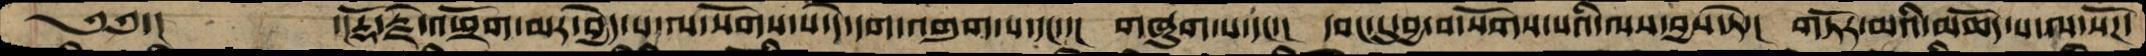༄༅་།       ་།རྡོ་རྗེ་འཕྲོག་མར་བྱེད་པ་ལ་སོགས་པ་དེ་དག་འགུག་པ་དང་་།  གཞུག་པ་དང་་།  དབང་དུ་བྱ་བ་སོགས་པའི་ལས་བྱས་ཏེ་།  གཏོར་མའི་མཆོད་པ་ལ་སོཌ་
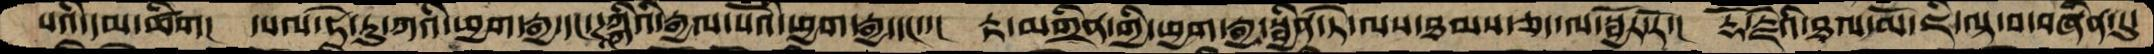པའི་དམ་ཚིག།  དཔལ་ཧེ་རུ་ཀའི་ཕྱག་རྒྱ་དང་ཌཱཀྐིའི་རྒྱལ་པོའི་ཕྱག་རྒྱ་དང་་།  རྟ་མགྲིན་གྱི་ཕྱག་རྒྱ་སྦྱིན་ཏེ་ལས་ཐམས་ཅད་ལ་སྦྱོར་རོ་།   རྡོ་རྗེའི་ཐལ་མོ་ཇི་ལྟ་བ་བཞིན་དུ་
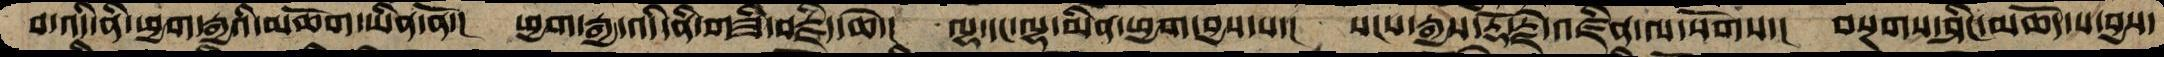བ་འདི་ནི་ཕྱག་རྒྱའི་མཆོག་ཡིན་ནོ་།  ཕྱག་རྒྱ་འདི་ནི་གཟི་བརྗིད་ཆེ་།  ལྷ་དང་ལྷ་མིན་ཕྱག་བྱས་པ་།  སངས་རྒྱས་རྡོ་རྗེ་འཛིན་ལ་སོགས་།  བསྔགས་ཤིང་མཆོད་པ་བྱས་
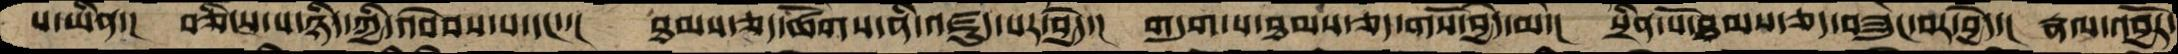པ་ཡིན་།  བཅིངས་པ་ཉིད་ཀྱི་འབེབས་པ་དང་་།  ཐམས་ཅད་ཚོགས་ནི་འཛུད་པར་བྱེད་།  གདུག་པ་ཐམས་ཅད་གསོ་བྱེད་མ་།  སྲིན་པོ་ཐམས་ཅད་བཟུང་བར་བྱེད་།  རྣལ་འབྱོར་
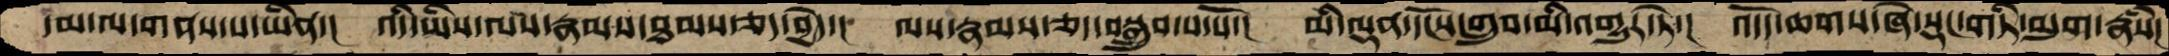དམ་ལ་གནས་པ་ཡིན་།  འདི་ཡིས་ལས་རྣམས་ཐམས་ཅད་བྱེད་།  ལས་རྣམས་ཅད་བསྒྲུབ་པ་པོ་།  མི་ལྡན་དངོས་གྲུབ་མི་འགྱུར་ཏེ་།  འདོད་ཆགས་ཞེ་སྡང་གཏི་མུག་རྣཾས།
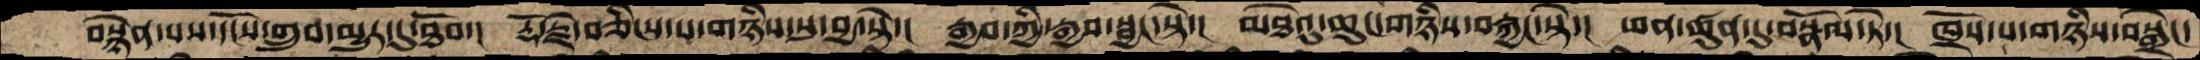བསྙེན་པས་དངོས་གྲུབ་མྱུར་དུ་ཐོབ་།  རྡོ་རྗེ་བཅིངས་པ་གཉིས་སུ་བྱ་སྟེ་།  རྒྱབ་ཀྱི་རྒྱབ་སྦྱང་སྟེ་།  མཐེའུ་ཆུང་གཉིས་བརྐྱང་སྟེ་།  ཕན་ཚུན་དུ་བསྣོལ་སྟེ་།  ཁྲོས་པ་གཉིས་བསྒྲེང་
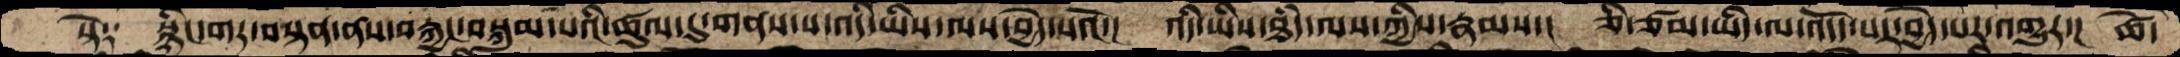སྟེ༑   སྙིང་གར་བསྟན་ནས་བརྐྱང་བསྐུམ་པའི་ཚུལ་དུ་གནས་པ་འདི་ཡིས་ལས་བྱེད་པའོ་།  འདི་ཡིས་ཐཾད་ལས་ཀྱིས་རྣམས་།  ཅི་ཙམ་ཡིད་ལ་འདོད་པར་བྱེད་པར་འགྱུར་།  ཚེ་
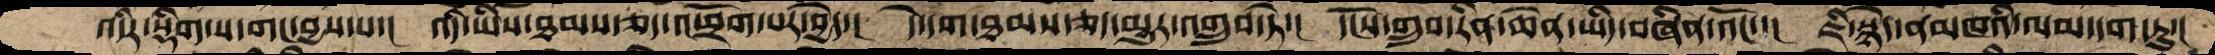འདིར་སྡིག་པ་གང་བྱས་པ་།  འདི་ཡིས་ཐམས་ཅད་འཕྲོག་པར་བྱེད་།  དེ་དག་ཐམས་ཅད་མྱུར་འགྲུབ་ཏེ་།  དངོས་གྲུབ་རིན་ཆེན་ཡིད་བཞིན་འོང་་།  ཇི་སྙེད་ནམཁའི་ལམ་དག་ཏུ་།
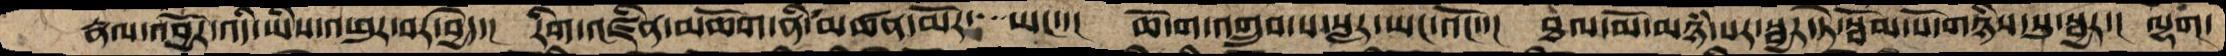རྣལ་འབྱོར་འདི་ཡིས་འཕུར་བར་བྱེད་།  རིག་འཛིན་མཆོག་ནི་མཚན་མོར་  ཡང་་།  ཆོ་ག་འགྲུབ་པ་སླར་ཡང་འོང་་།  ཐལ་མོ་མཉཾ་པར་སྦྱར་ཏེ་སྦོམ་པོ་གཉིས་སུ་སྦྱར་།  ལྷག་
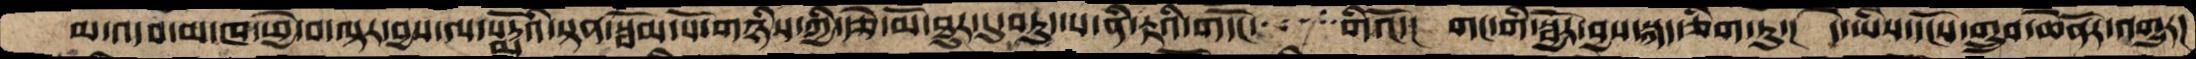མ་འདབ་མ་ཁ་ཕྱེ་བ་ལྟར་བྱས་ལ་པདྨོའི་སྟན་སྦོམ་པོ་གཉིས་ཀྱི་རྩེ་མོ་ཐུར་དུ་བཏུད་པ་ནི་རྟའི་གདོང་   གིའོ་།  གང་གི་སྦྱོར་བྱས་སྐད་ཅིག་ཏུ་།  དེ་ཡིས་དངོས་གྲུབ་ཆེནོར་འགྱུར།
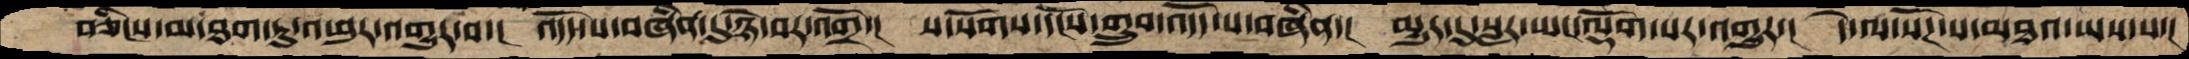བཅིངས་མ་ཐག་ཏུ་འཕུར་འགྱུར་བ་།  འདོད་པ་བཞིན་དུ་ཉེ་བར་འགྲོ་།  ས་སོགས་དངོས་གྲུབ་འདོད་པ་བཞིན་།  མྱུར་དུ་སླར་ཡང་ལྡོག་པར་འགྱུར་།  དེ་ལ་སོཌ་པ་མཐའ་ཡས་པ་།
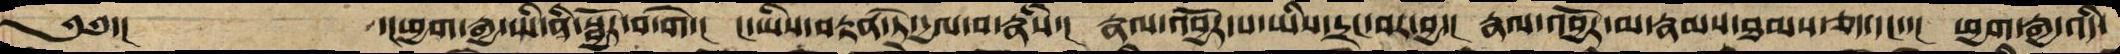༄༅་།          ་།ཕྱག་རྒྱ་ཡི་ནི་སྦྱོར་བ་གེ་།  ང་ཡིས་བརྟན་ཏེ་དྱལ་བ་རྣཾས་།  རྣལ་འབྱོར་པ་ཡིས་དྲང་བར་བྱ་།  རྣལ་འབྱོར་མ་རྣམས་ཐམས་ཅད་དང་་།   ཕྱག་རྒྱ་འདི་
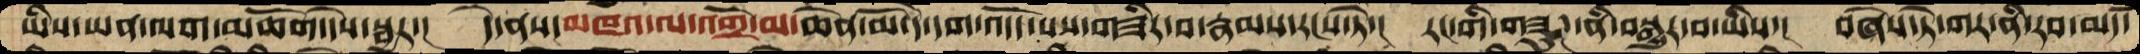ཡིས་ཡན་ལག་མཆོག་དེས་སྦྱར་།   དེ་ནས་མཁའ་ལ་འགྲོ་མ་ཆེན་མོ་དེ་དག་འདོད་པས་གཟིར་བ་རྣམས་རངས་ཏེ་།  རང་གི་གཟུཌ་ནི་བསྒྱུར་བ་ཡིས་།  བཞེས་ཏེ་གར་ནི་རབ་མཛད་
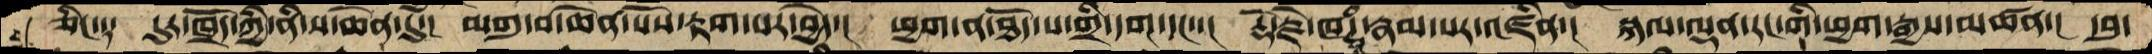ཅིང་༑   དུར་ཁྲོད་ཀྱི་ནི་ས་ཆེན་དུ་།  མགུ་བ་ཆེན་པོས་རྟག་པར་བྱེད་།  ཕྱག་ན་ཐོད་པ་གྲི་དག་དང་་།  རྡོ་རྗེ་ཁཊྭཱཾ་རྣམ་པར་འཛིན་།  སྐལ་ལྡན་རང་གི་ཕྱག་རྒྱས་མཚན་།  དབུ་
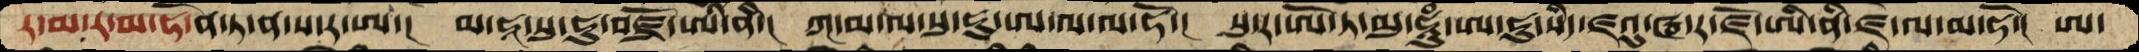ར་མ་ར་མ་ཧོ་ན་ཏ་ན་ས་ར་ཨ་།   མ་ཧཱ་སུ་ཧུ་བཛྲོ་ཨི་ནི་།  ཀ་མ་ལ་སུ་ཧུ་ཨ་ལ་ལ་ཧོ་།  སུ་ར་ཨོ་ཏ་མུ་ཧཱུཾ་ཨ་ཧུ་སིད་ཛའུ་ཝ་ར་ཛོ་ཨི་ནི་ཛ་ལ་མ་ཧོ་།  ཨ་
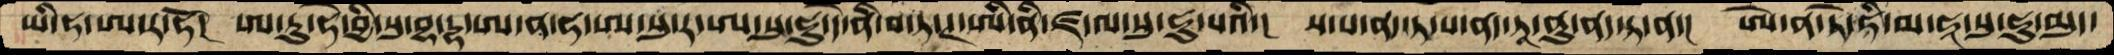ཡི་ཧ་ཨ་ར་ཧོ།  ཨ་ཏུ་ཧེ་བྱི་སུ་བྷ་དྷ་ཨ་ན་ཧ་ཨ་སུ་ར་ཨ་སུ་ཧུ་དེ་ནི་བ་ཏ་ཊ་ཨི་ནི་ཛ་ལ་སུ་ཧུ་པའི་།  ས་པ་ནད་ཏ་པ་ནད་ཏཱ་ནུ་ནད་ཏ་ན་།  ཨེ་ན་ཏེ་ཧི་མ་ཧཱ་སུ་ཧུ་མུད་
